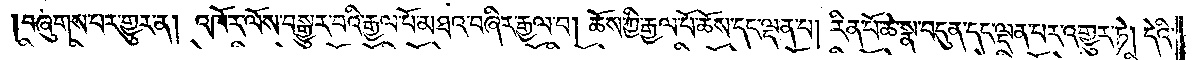བཞུགས་པར་གྱུར་ན། འཁོར་ལོས་བསྒྱུར་བའི་རྒྱལ་པོ་མཐའ་བཞིར་རྒྱལ་བ། ཆོས་ཀྱི་རྒྱལ་པོ་ཆོས་དང་ལྡན་པ། རིན་པོ་ཆེ་སྣ་བདུན་དང་ལྡན་པར་འགྱུར་ཏེ། དེའི་
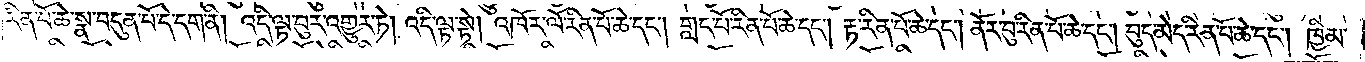རིན་པོ་ཆེ་སྣ་བདུན་པོ་དེ་དག་ནི། འདི་ལྟ་བུར་འགྱུར་ཏེ། འདི་ལྟ་སྟེ། འཁོར་ལོ་རིན་པོ་ཆེ་དང༌། གླང་པོ་རིན་པོ་ཆེ་དང༌། རྟ་རིན་པོ་ཆེ་དང༌། ནོར་བུ་རིན་པོ་ཆེ་དང༌། བུད་མེད་རིན་པོ་ཆེ་དང༌། ཁྱིམ་
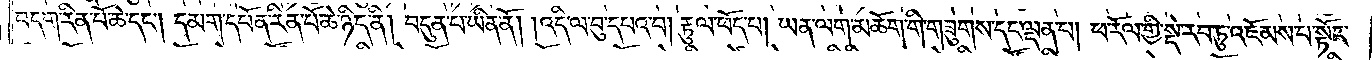བདག་རིན་པོ་ཆེ་དང༌། དམག་དཔོན་རིན་པོ་ཆེ་ཉིད་ནི། བདུན་པ་ཡིན་ནོ། །འདི་ལ་བུ་དཔའ་བ། རྟུལ་ཕོད་པ། ཡན་ལག་མཆོག་གི་གཟུགས་དང་ལྡན་པ། ཕ་རོལ་གྱི་སྡེ་རབ་ཏུ་འཇོམས་པ་སྟོང་
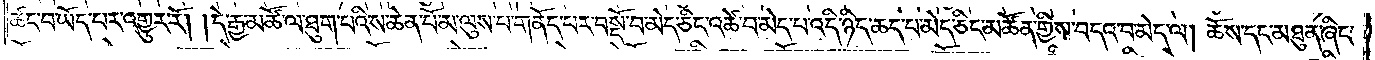ཚང་བ་ཡོད་པར་འགྱུར་རོ། །དེ་རྒྱ་མཚོ་ལ་ཐུག་པའི་ས་ཆེན་པོ་མ་ལུས་པ་གནོད་པར་བསྔོ་བ་མེད་ཅིང་འཚེ་བ་མེད་པ་འདི་ཉིད་ཆད་པ་མེད་ཅིང་མཚོན་གྱིས་བདའ་བ་མེད་ལ། ཆོས་དང་མཐུན་ཞིང་
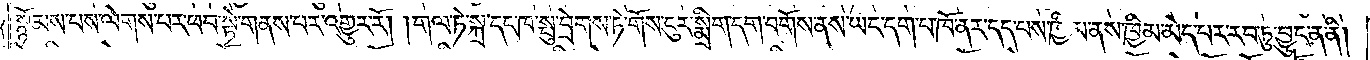སྙོམས་པས་ལེགས་པར་ཕབ་སྟེ་གནས་པར་འགྱུར་རོ། །གལ་ཏེ་སྐྲ་དང་ཁ་སྤུ་བྲེགས་ཏེ་གོས་ངུར་སྨྲིག་དག་བགོས་ནས་ཡང་དག་པ་ཁོ་ནར་དད་པས་ཁྱིམ་ནས་ཁྱིམ་མེད་པར་རབ་ཏུ་བྱུང་ན་ནི།
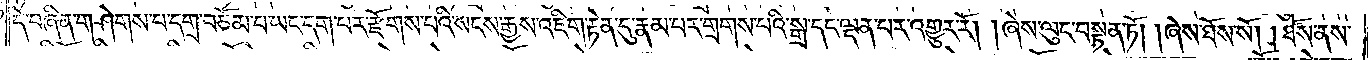དེ་བཞིན་གཤེགས་པ་དགྲ་བཅོམ་པ་ཡང་དག་པར་རྫོགས་པའི་སངས་རྒྱས་འཇིག་རྟེན་དུ་རྣམ་པར་གྲགས་པའི་སྒྲ་དང་ལྡན་པར་འགྱུར་རོ། །ཞེས་ལུང་བསྟན་ཏོ། །ཞེས་ཐོས་སོ། །ཐོས་ནས་
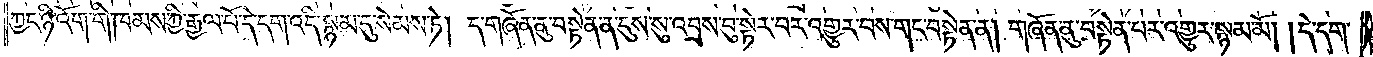ཀྱང་ཉི་འོག་གི་ཁམས་ཀྱི་རྒྱལ་པོ་དེ་དག་འདི་སྙམ་དུ་སེམས་ཏེ། ད་གཞོན་ནུ་བསྟེན་ན་དུས་སུ་འབྲས་བུ་སྟེར་བར་འགྱུར་བས་གང་བསྟེན་ན། གཞོན་ནུ་བསྟེན་པར་འགྱུར་སྙམ་མོ། །དེ་དག་
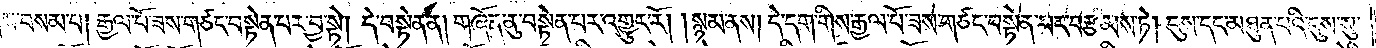གིས་བསམ་པ། རྒྱལ་པོ་ཟས་གཙང་བསྟེན་པར་བྱ་སྟེ། དེ་བསྟེན་ན། གཞོན་ནུ་བསྟེན་པར་འགྱུར་རོ། །སྙམ་ནས། དེ་དག་གིས་རྒྱལ་པོ་ཟས་གཙང་བསྟེན་པར་བརྩམས་ཏེ། དུས་དང་མཐུན་པའི་དུས་སུ་
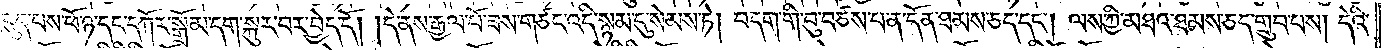འདུད་པས་ཕོ་ཉ་དང་དཀོར་སྒྲོམ་དག་སྐུར་བར་བྱེད་དོ། །དེ་ནས་རྒྱལ་པོ་ཟས་གཙང་འདི་སྙམ་དུ་སེམས་ཏེ། བདག་གི་བུ་བཙས་པ་ན་དོན་ཐམས་ཅད་དང༌། ལས་ཀྱི་མཐའ་ཐམས་ཅད་གྲུབ་པས། དེའི་
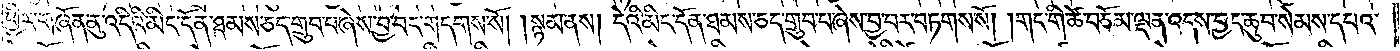ཕྱིར་གཞོན་ནུ་འདིའི་མིང་དོན་ཐམས་ཅད་གྲུབ་པ་ཞེས་བྱ་བར་གདགས་སོ། །སྙམ་ནས། དེའི་མིང་དོན་ཐམས་ཅད་གྲུབ་པ་ཞེས་བྱ་བར་བཏགས་སོ། །གང་གི་ཚེ་བཅོམ་ལྡན་འདས་བྱང་ཆུབ་སེམས་དཔའ་
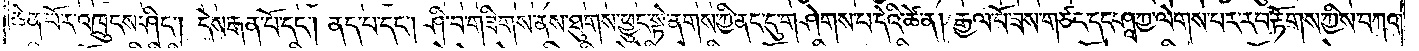ཆེན་པོར་འཁྲུངས་ཤིང༌། དེས་རྒན་པོ་དང༌། ནད་པ་དང༌། ཤི་བ་གཟིགས་ནས་ཐུགས་ཕྱུང་སྟེ་ནགས་ཀྱི་ནང་དུ་གཤེགས་པ་དེའི་ཚེ་ན། རྒྱལ་པོ་ཟས་གཙང་དང་ཤཱཀྱ་ལེགས་པར་རབ་རྟོགས་ཀྱིས་བཀའ་
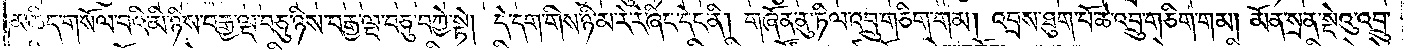མཆིད་གསོལ་བའི་མི་ཉིས་བརྒྱ་ལྔ་བཅུ་ཉིས་བརྒྱ་ལྔ་བཅུ་བཀྱེ་སྟེ། དེ་དག་གིས་ཉི་མ་རེ་རེ་ཞིང་དེང་ནི། གཞོན་ནུ་ཏིལ་འབྲུ་གཅིག་གམ། འབྲས་ཐུག་པོ་ཆེ་འབྲུ་གཅིག་གམ། མོན་སྲན་སྡེའུ་འབྲུ་
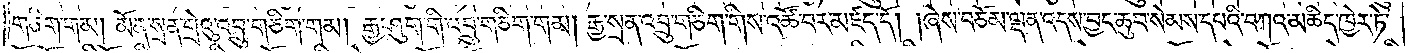གཅིག་གམ། མོན་སྲན་གྲེའུ་འབྲུ་གཅིག་གམ། རྒྱ་ཤུག་གི་འབྲུ་གཅིག་གམ། རྒྱ་སྲན་འབྲུ་གཅིག་གིས་འཚོ་བར་མཛད་དོ། །ཞེས་བཅོམ་ལྡན་འདས་བྱང་ཆུབ་སེམས་དཔའི་བཀའ་མཆིད་ཁྱེར་ཏེ་
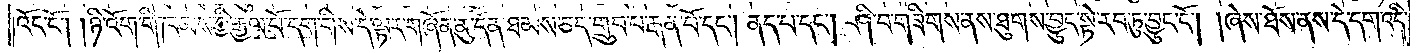འོང་ངོ༌། །ཉི་འོག་གི་ཁམས་ཀྱི་རྒྱལ་པོ་དག་གིས་དེ་ལྟར་གཞོན་ནུ་དོན་ཐམས་ཅད་གྲུབ་པ་རྒན་པོ་དང༌། ནད་པ་དང༌། ཤི་བ་གཟིགས་ནས་ཐུགས་བྱུང་སྟེ་རབ་ཏུ་བྱུང་ངོ༌། །ཞེས་ཐོས་ནས་དེ་དག་འདི་
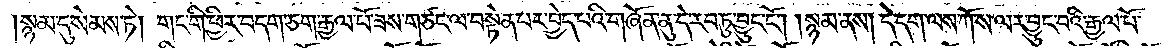སྙམ་དུ་སེམས་ཏེ། གང་གི་ཕྱིར་བདག་ཅག་རྒྱལ་པོ་ཟས་གཙང་ལ་བསྟེན་པར་བྱེད་པའི་གཞོན་ནུ་དེ་རབ་ཏུ་བྱུང་ངོ༌། །སྙམ་ནས། དེ་དག་ལས་ཀོ་ས་ལར་བྱུང་བའི་རྒྱལ་པོ་
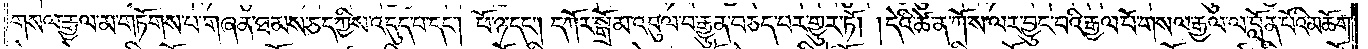གསལ་རྒྱལ་མ་གཏོགས་པ་གཞན་ཐམས་ཅད་ཀྱིས་འདུད་པ་དང༌། ཕོ་ཉ་དང༌། དཀོར་སྒྲོམ་འབུལ་བ་རྒྱུན་བཅད་པར་གྱུར་ཏོ། །དེའི་ཚེ་ན་ཀོ་ས་ལར་བྱུང་བའི་རྒྱལ་པོ་གསལ་རྒྱལ་ལ་བློན་པོའི་མཆོག་
